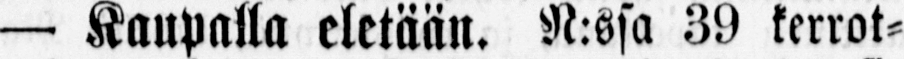— Kaupalla eletään. N:ssa 39 kerrot-
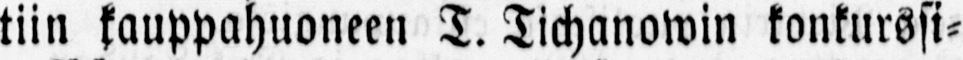tiin kauppahuoneen T. Tichanowin konkurssi-
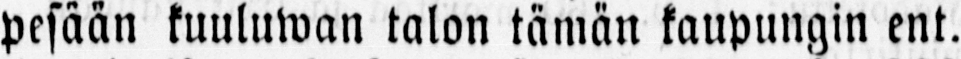pesään kuuluwan talon tämän kaupungin ent.
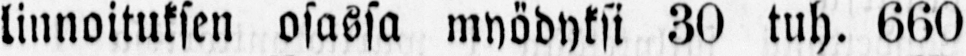linnoituksen osassa myödyksi 30 tuh. 660
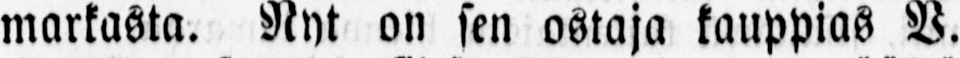markasta. Nyt on sen ostaja kauppias V.
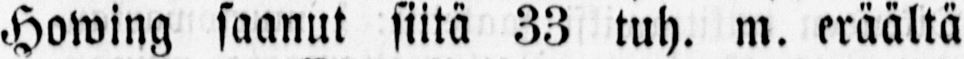Howing saanut siitä 33 tuh. m. eräältä
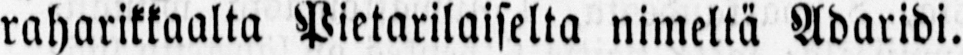raharikkaalta Pietarilaiselta nimeltä Adaridi.
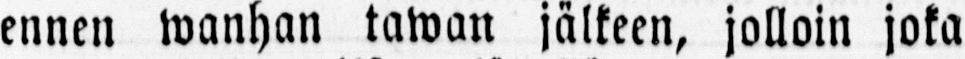ennen wanhan tawan jälkeen, jolloin joka
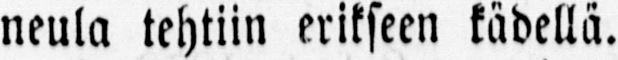neula tehtiin erikseen kädellä.
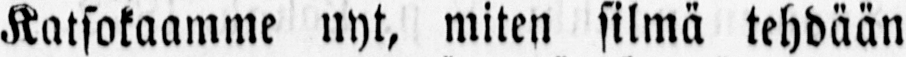Katsokaamme nyt, miten silmä tehdään
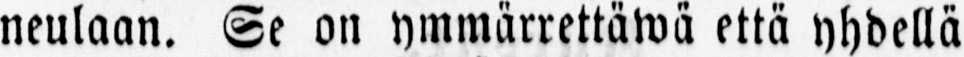neulaan. Se on ymmärrettäwä että yhdellä
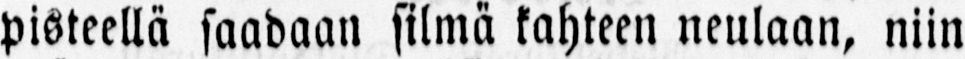pisteellä saadaan silmä kahteen neulaan, niin
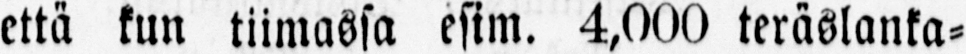että kun tiimassa esim. 4,000 teräslanka-
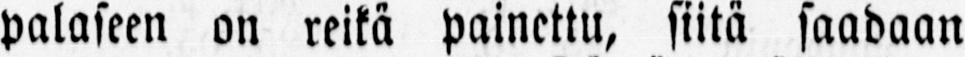palaseen on reikä painettu, siitä saadaan
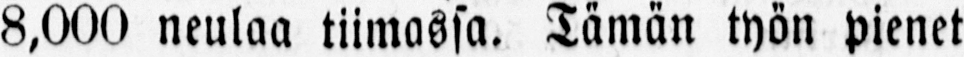8,000 neulaa tiimassa. Tämän työn pienet
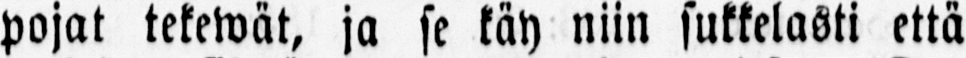pojat tekewät, ja se käy niin sukkelasti että
